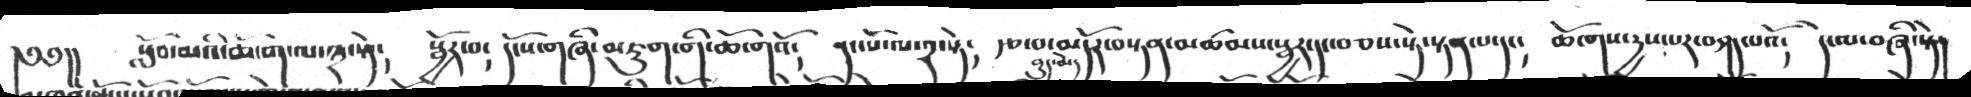༄༅།།  སློབ་མའི་ཆོ་ག་ལ་༣་སྟེ༴  སྦྱོར་བ༴ དངོས་གཞི་མཇུག་གི་ཆོ་གའོ༴  དང་པོ་ལ་༢་སྟེ༴  རྩ་བ་མདོར་བསྟན་མཚམས་སྦྱར་དང་བཅས་སྟེ་སྟན་པ་དང༴   ཆོ་གས་རྱས་པར་བཤད་པའོ༴  དེ་ལ་བཞི་སྟེ།
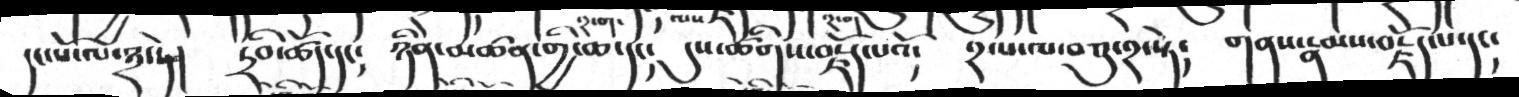དང་པོ་ལ་༣་ཏེ།  ཏྲིབ་ཚོད་དང།   ཉིན་མཚན་གྱི་ཆ་དང།  དུས་ཚིགས་བརྗོད་པའོ།   ༢་པ་ལ་བཅུ་༢་སྟེ།   གནས་རྣམས་བརྗོད་པ་དང།
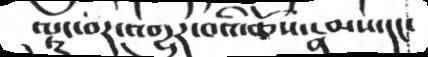ལྟུང་བར་འགྱུར་བའི་ཆོས་རྣམས་དང་
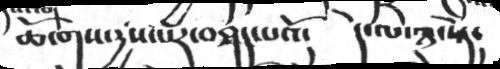ཆོ་གས་རྱས་པར་བཤད་པའོ།  དེ་ལ་༣་སྟེ།
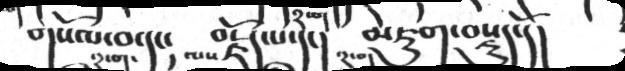གསོལ་བ་དང།   བརྗོད་པ་དང།   མཇུག་བསྡུད་དོ།
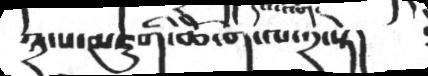༣་པ་མཇུགི་ཆོ་ག་ལ་༢་སྟེ།
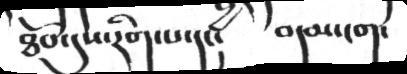ཐོབ་དུས་རིགས་པ་དང།  བདམ་ངག་
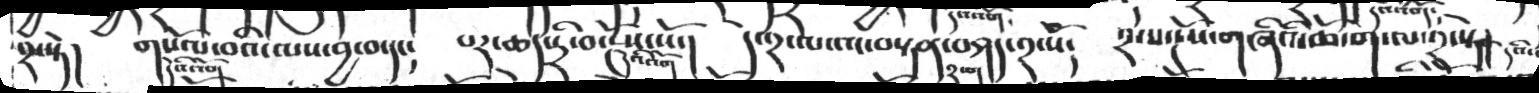༢་སྟེ།   གསལ་བའི་ལས་བྱ་བ་དང།    པར་ཆད་དྲི་བ་རྔོས་སོ་།   དེ་༢་ལ་འང་བསྟན་བཤད་༢་སོ།   ༢་པ་རྔོས་གཞིའི་ཆོ་ག་ལ་༢་སྟེ།
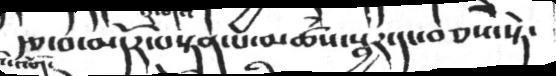རྩ་བ་མདོར་བསྟན་པ་མཚཾས་སྦྱར་དང་བཅས་སྟེ་
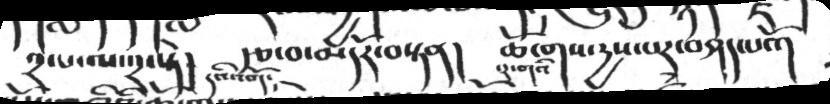༢་པ་ལ་༢་སྟེ།  རྩ་བ་མདོར་བསྟན།  ཆོ་གས་རྱས་པར་བཤད་པའོ།
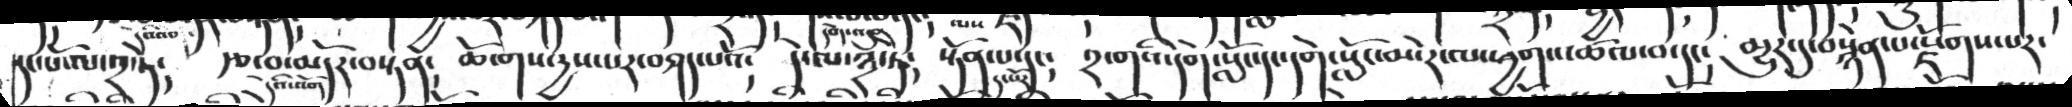དང་པོ་ལ་༢་ཏེ༴  རྩ་བ་མདོར་བསྟན༴  ཆོ་གས་རྱས་པར་བཤད་པའོ༴  དེ་ལ་༣་ཏེ༴  སྟོན་པ་དང༴  ༢་གའི་དགེ་སློང་དང་དགེ་སློང་མ་རེ་ལ་ཕྱགས་ཚལ་བ་དང༴   མྱུར་དུ་བསྙེན་པ་རྫོགས་པར་
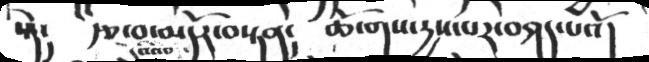སྟེ༴   རྩ་བ་མདོར་བསྟན༴   ཆོ་གས་རྱས་པར་བཤད་པའོ།
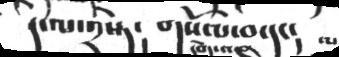དེ་ལ་༢་སྟེ།     གསོལ་བ་དང།
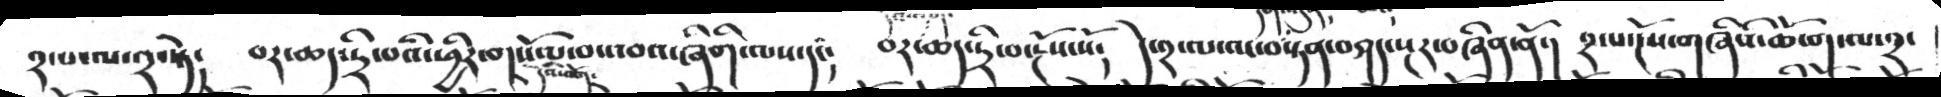༢་པ་ལ་༢་སྟེ།   བར་ཆད་དྲི་བའི་ཕྱིར་གསོལ་བ་འབའ་ཞིགི་ལས་དང།  བར་ཆད་དྲི་བ་རྔོས་སོ།    དེ་༢་ལ་མ་བསྟན་བཤད་སྔར་བཞིན་ནོ་།   ༢་པ་དངོས་གཞིའི་ཆོ་ག་ལ་༢་
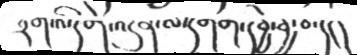རག་འི་དགེ་འདུན་ལ་དགག་དབྱེ་བྱ་བ་དང།
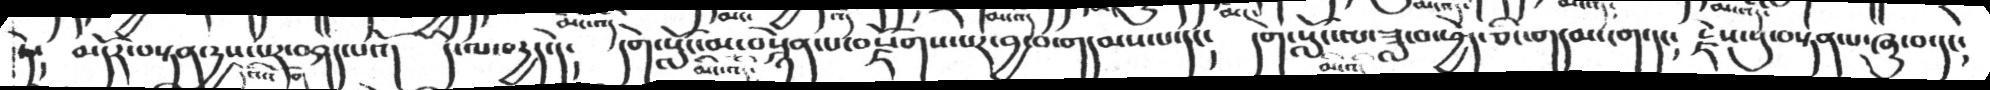ཏེ༴  མདོར་བསྟན་རྱས་པར་བཤད་པའོ།  དེ་ལ་བརྱད་དེ༴  དགེ་སློང་མ་བསྙེན་པ་བརྫོགས་པར་བྱ་བ་གདམས་པ་དང༴  དགེ་སློང་ལ་ཟླ་བ་ཕྱེད་ཅིང་གདམ་ངག་དང༴   རྗེས་སུ་བསྟན་པ་ཞུ་བ་དང༴
